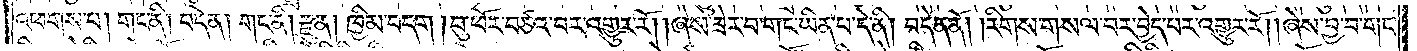འཕགས་པ། གང་ནི། བདེན། གང་ནི། རྫུན། ཁྱིམ་བདག །བུ་ཕོར་བཙའ་བར་འགྱུར་རོ། །ཞེས་ཟེར་བ་གང་ཡིན་པ་དེ་ནི། བདེན་ནོ། །རིགས་གསལ་བར་བྱེད་པར་འགྱུར་རོ། །ཞེས་བྱ་བ་གང་
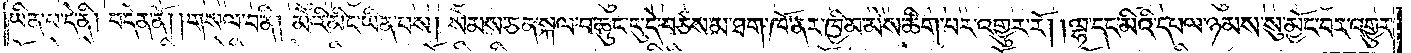ཡིན་པ་དེ་ནི། བདེན་ནོ། །གསལ་བ་ནི། མེའི་མིང་ཡིན་པས། སེམས་ཅན་སྐལ་བ་ཆུང་ངུ་དེ་བཙས་མ་ཐག་ཁོ་ནར་ཁྱིམ་མེས་ཚིག་པར་འགྱུར་རོ། །ལྷ་དང་མིའི་དཔལ་ཉམས་སུ་མྱོང་བར་འགྱུར་
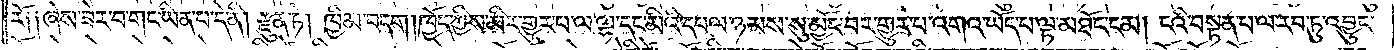རོ༑ ༑ཞེས་ཟེར་བ་གང་ཡིན་པ་དེ་ནི། རྫུན་ཏེ། ཁྱིམ་བདག །ཁྱོད་ཀྱིས་མིར་གྱུར་པ་ལ་ལྷ་དང་མིའི་དཔལ་ཉམས་སུ་མྱོང་བར་གྱུར་པ་འགའ་ཡོད་པ་ལྟ་མཐོང་ངམ། ངའི་བསྟན་པ་ལ་རབ་ཏུ་འབྱུང་
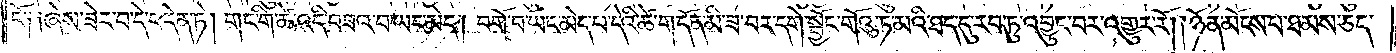ངོ༑ ༑ཞེས་ཟེར་བ་དེ་བདེན་ཏེ། གང་གི་ཚེ་འདི་བཟའ་བ་ཡང་མེད། བགོ་བ་ཡང་མེད་པ་དེའི་ཚེ་གདོན་མི་ཟ་བར་དགེ་སྦྱོང་གོའུ་ཏ་མའི་ཐད་དུ་རབ་ཏུ་འབྱུང་བར་འགྱུར་རོ། །ཉོན་མོངས་པ་ཐམས་ཅད་
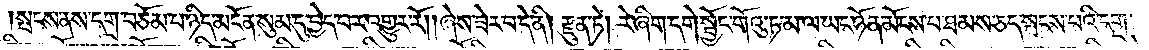སྤངས་ནས་དགྲ་བཅོམ་པ་ཉིད་མངོན་སུམ་དུ་བྱེད་པར་འགྱུར་རོ། །ཞེས་ཟེར་བ་དེ་ནི། རྫུན་ཏེ། རེ་ཞིག་དགེ་སྦྱོང་གོའུ་ཏ་མ་ལ་ཡང་ཉོན་མོངས་པ་ཐམས་ཅད་སྤངས་པའི་དགྲ་
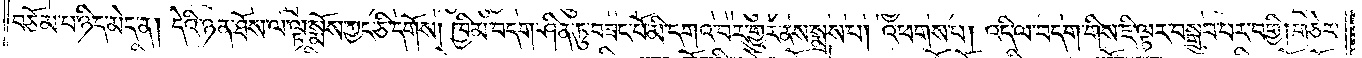བཅོམ་པ་ཉིད་མེད་ན། དེའི་ཉན་ཐོས་ལ་ལྟ་སྨོས་ཀྱང་ཅི་དགོས། ཁྱིམ་བདག་ཤིན་ཏུ་བཟང་པོ་མི་དགའ་བར་གྱུར་ནས་སྨྲས་པ། འཕགས་པ། འདི་ལ་བདག་གིས་ཇི་ལྟར་བསྒྲུབ་པར་བགྱི། གཅེར་
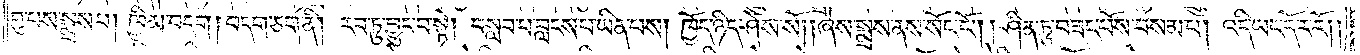བུ་པས་སྨྲས་པ། ཁྱིམ་བདག །བདག་ཅག་ནི། རབ་ཏུ་བྱུང་བ་སྟེ། བསླབ་པ་བླངས་པ་ཡིན་པས། ཁྱོད་ཉིད་ཤེས་སོ། །ཞེས་སྨྲས་ནས་སོང་ངོ༌། །ཤིན་ཏུ་བཟང་པོས་བསམ་པ། འདི་ཡང་དོར་རོ། །
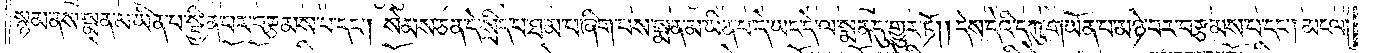སྙམ་ནས་སྨན་མ་ཡིན་པ་སྦྱིན་པར་བརྩམས་པ་དང༌། སེམས་ཅན་དེ་སྲིད་པ་ཐ་མ་པ་ཞིག་པས་སྨན་མ་ཡིན་པ་དེ་ཡང་དེ་ལ་སྨན་དུ་གྱུར་ཏོ། །དེས་དེའི་དཀུ་གཡོན་པ་མཉེ་བར་བརྩམས་པ་དང༌། མངལ་
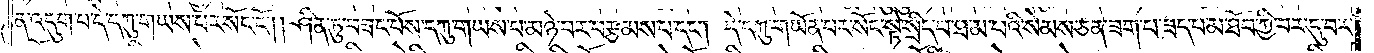ན་འདུག་པ་དེ་དཀུ་གཡས་པར་སོང་ངོ༌། །ཤིན་ཏུ་བཟང་པོས་དཀུ་གཡས་པ་མཉེ་བར་བརྩམས་པ་དང༌། དེ་དཀུ་གཡོན་པར་སོང་སྟེ་སྲིད་པ་ཐ་མ་པའི་སེམས་ཅན་ཟག་པ་ཟད་པ་མ་ཐོབ་ཀྱི་བར་དུ་བར་
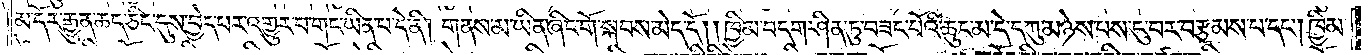མ་དོར་རྒྱུན་ཆད་ཅིང་དུས་བྱེད་པར་འགྱུར་པ་གང་ཡིན་པ་དེ་ནི། གནས་མ་ཡིན་ཞིང་གོ་སྐབས་མེད་དོ། །ཁྱིམ་བདག་ཤིན་ཏུ་བཟང་པོའི་ཆུང་མ་དེ་དཀུ་མཉེས་པས་ངུ་བར་བརྩམས་པ་དང༌། ཁྱིམ་
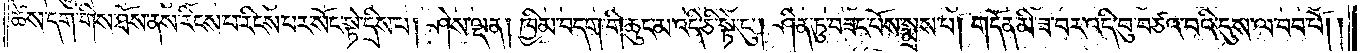ཚེས་དག་གིས་ཐོས་ནས་རིངས་པ་རིངས་པར་སོང་སྟེ་དྲིས་པ། ཤེས་ལྡན། ཁྱིམ་བདག་གི་ཆུང་མ་འདི་ཅི་སྟེ་ངུ༌། ཤིན་ཏུ་བཟང་པོས་སྨྲས་པ། གདོན་མི་ཟ་བར་འདི་བུ་བཙའ་བའི་དུས་ལ་བབ་བོ། །
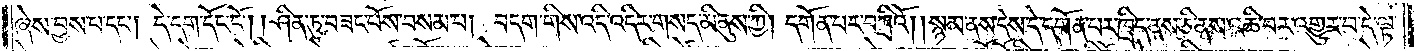ཞེས་བྱས་པ་དང༌། དེ་དག་དོང་ངོ༌། །ཤིན་ཏུ་བཟང་པོས་བསམ་པ། བདག་གིས་འདི་འདིར་གསད་མི་ནུས་ཀྱི། དགོན་པར་བཀྲིའོ། །སྙམ་ནས་དེས་དེ་དགོན་པར་ཁྲིད་ནས་ཅི་ནས་འཆི་བར་འགྱུར་བ་དེ་ལྟ་
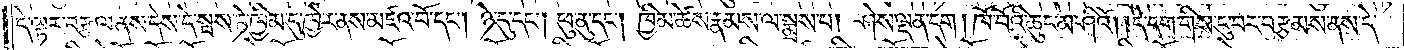དེ་ལྟར་བརྩལ་ནས་དེས་དེ་སྦས་ཏེ་ཁྱིམ་དུ་ཁྱེར་ནས་མཛའ་བོ་དང༌། ཉེ་དུ་དང༌། ཕུ་ནུ་དང༌། ཁྱིམ་ཚེས་རྣམས་ལ་སྨྲས་པ། ཤེས་ལྡན་དག །ཁོ་བོའི་ཆུང་མ་ཤིའོ། །དེ་དག་གིས་ངུ་བར་བརྩམས་ནས་དེ་
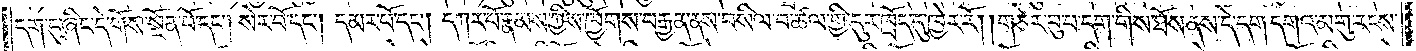དག་ངུ་ཞིང་དེ་གོས་སྔོན་པོ་དང༌། སེར་པོ་དང༌། དམར་པོ་དང༌། དཀར་པོ་རྣམས་ཀྱིས་ཁྱོགས་བརྒྱན་ནས་བསིལ་བ་ཚལ་གྱི་དུར་ཁྲོད་དུ་ཁྱེར་རོ། །གཅེར་བུ་པ་དག་གིས་ཐོས་ནས་དེ་དག་དགའ་མགུ་རངས་
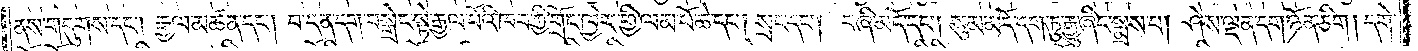ནས་གདུགས་དང༌། རྒྱལ་མཚན་དང༌། བ་དན་དག་བསྒྲེང་སྟེ་རྒྱལ་པོའི་ཁབ་ཀྱི་གྲོང་ཁྱེར་གྱི་ལམ་པོ་ཆེ་དང༌། སྲང་དང༌། བཞི་མདོ་དང༌། སུམ་མདོ་དག་ཏུ་རྒྱུ་ཞིང་སྨྲས་པ། ཤེས་ལྡན་དག་ཉོན་ཅིག །དགེ་
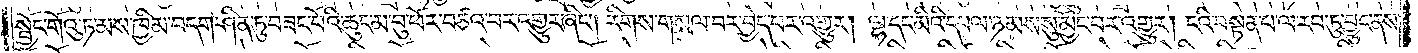སྦྱོང་གོའུ་ཏ་མས་ཁྱིམ་བདག་ཤིན་ཏུ་བཟང་པོའི་ཆུང་མ་བུ་ཕོར་བཙའ་བར་འགྱུར་ཞིང༌། རིགས་གསལ་བར་བྱེད་པར་འགྱུར། ལྷ་དང་མིའི་དཔལ་ཉམས་སུ་མྱོང་བར་འགྱུར། ངའི་བསྟན་པ་ལ་རབ་ཏུ་བྱུང་ནས་
